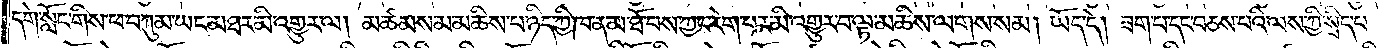དགེ་སློང་གིས་ཕ་བཀུམ་ཡང་མཐར་མི་འགྱུར་ལ། མཚམས་མ་མཆིས་པ་ཉིད་ཀྱི་ཁ་ན་མ་ཐོ་བས་ཀྱང་རེག་པར་མི་འགྱུར་བ་ལྟ་མཆིས་ལགས་སམ། ཡོད་དེ། ཟག་པ་དང་བཅས་པའི་ལས་ཀྱི་སྲིད་པ་
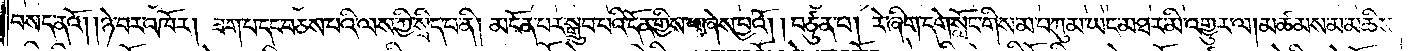བསད་ནའོ། །ཉེ་བར་འཁོར། ཟག་པ་དང་བཅས་པའི་ལས་ཀྱི་སྲིད་པ་ནི། མངོན་པར་སྒྲུབ་པའི་དོན་གྱིས་ཕ་ཞེས་བྱའོ། །བཙུན་པ། རེ་ཞིག་དགེ་སློང་གིས་མ་བཀུམ་ཡང་མཐར་མི་འགྱུར་ལ། མཚམས་མ་མཆིས་
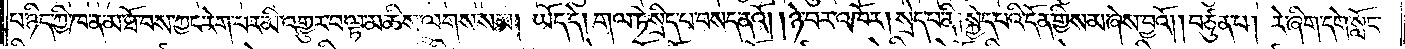པ་ཉིད་ཀྱི་ཁ་ན་མ་ཐོ་བས་ཀྱང་རེག་པར་མི་འགྱུར་བ་ལྟ་མཆིས་ལགས་སམ། ཡོད་དེ། གལ་ཏེ་སྲིད་པ་བསད་ནའོ། །ཉེ་བར་འཁོར། སྲེད་པ་ནི། སྐྱེད་པའི་དོན་གྱིས་མ་ཞེས་བྱའོ། །བཙུན་པ། རེ་ཞིག་དགེ་སློང་
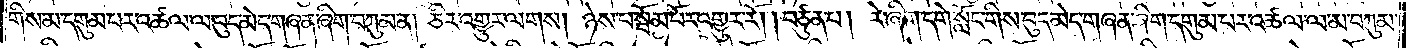གིས་མ་དགུམ་པར་འཚལ་ལ་བུད་མེད་གཞན་ཞིག་བཀུམ་ན། ཅིར་འགྱུར་ལགས། ཉེས་པ་སྦོམ་པོར་འགྱུར་རོ། །བཙུན་པ། རེ་ཞིག་དགེ་སློང་གིས་བུད་མེད་གཞན་ཞིག་དགུམ་པར་འཚལ་ལ་མ་བཀུམ་
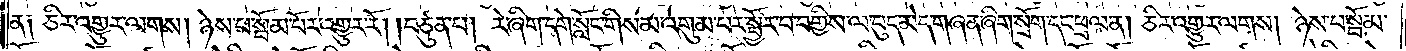ན༑ ཅིར་འགྱུར་ལགས། ཉེས་པ་སྦོམ་པོར་འགྱུར་རོ། །བཙུན་པ། རེ་ཞིག་དགེ་སློང་གིས་མ་འགུམ་པར་སྦྱོར་བ་བགྱིས་ལ་བུད་མེད་གཞན་ཞིག་སྲོག་དང་ཕྲལ་ན། ཅིར་འགྱུར་ལགས། ཉེས་པ་སྦོམ་
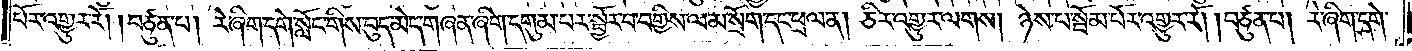པོར་འགྱུར་རོ། །བཙུན་པ། རེ་ཞིག་དགེ་སློང་གིས་བུད་མེད་གཞན་ཞིག་དགུམ་པར་སྦྱོར་བ་བགྱིས་ལམ་སྲོག་དང་ཕྲལ་ན། ཅིར་འགྱུར་ལགས། ཉེས་པ་སྦོམ་པོར་འགྱུར་རོ། །བཙུན་པ། རེ་ཞིག་དགེ་
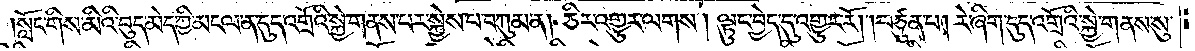།སློང་གིས་མིའི་བུད་མེད་ཀྱི་མངལ་ན་དུད་འགྲོའི་སྐྱེ་གནས་པར་སྐྱེས་པ་བཀུམ་ན། ཅིར་འགྱུར་ལགས། ལྟུང་བྱེད་དུ་འགྱུར་རོ། །བཙུན་པ། རེ་ཞིག་དུད་འགྲོའི་སྐྱེ་གནས་སུ་
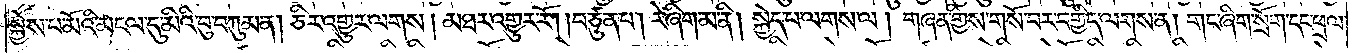སྐྱེས་པ་མོའི་མངལ་དུ་མིའི་བུ་བཀུམ་ན། ཅིར་འགྱུར་ལགས། མཐར་འགྱུར་རོ། །བཙུན་པ། རེ་ཞིག་མ་ནི། སྐྱེད་པ་ལགས་ལ། གཞན་གྱིས་གསོ་བར་བགྱིད་ལགས་ན། གང་ཞིག་སྲོག་དང་ཕྲལ་
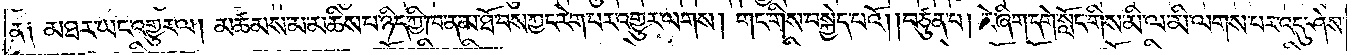ན༑ མཐར་ཡང་འགྱུར་ལ། མཚམས་མ་མཆིས་པ་ཉིད་ཀྱི་ཁ་ན་མ་ཐོ་བས་ཀྱང་རེག་པར་འགྱུར་ལགས། གང་གིས་བསྐྱེད་པའོ། །བཙུན་པ། རེ་ཞིག་དགེ་སློང་གིས་མི་ལ་མི་ལགས་པར་འདུ་ཤེས་
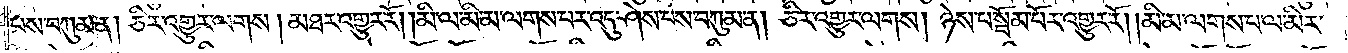པས་བཀུམ་ན། ཅིར་འགྱུར་ལགས། མཐར་འགྱུར་རོ། །མི་ལ་མི་མ་ལགས་པར་འདུ་ཤེས་པས་བཀུམ་ན། ཅིར་འགྱུར་ལགས། ཉེས་པ་སྦོམ་པོར་འགྱུར་རོ། །མི་མ་ལགས་པ་ལ་མིར་
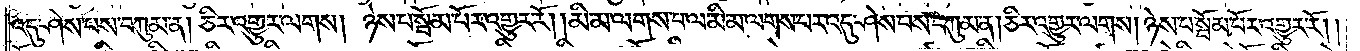འདུ་ཤེས་པས་བཀུམ་ན། ཅིར་འགྱུར་ལགས། ཉེས་པ་སྦོམ་པོར་འགྱུར་རོ། །མི་མ་ལགས་པ་ལ་མི་མ་ལགས་པར་འདུ་ཤེས་པས་བཀུམ་ན། ཅིར་འགྱུར་ལགས། ཉེས་པ་སྦོམ་པོར་འགྱུར་རོ། །
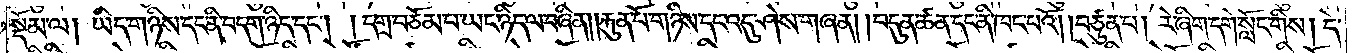སྡོམ་ལ། ཡིད་གཉིས་དང་ནི་བདག་ཉིད་དང༌། །དགྲ་བཅོམ་པ་ཡང་ཉིད་ལ་བཞིན། །རྐུན་པོ་གཉིས་དང་འདུ་ཤེས་གཞན། །བདུན་ཚན་དང་ནི་ཁང་པའོ། །བཙུན་པ། རེ་ཞིག་དགེ་སློང་གིས། དེ་
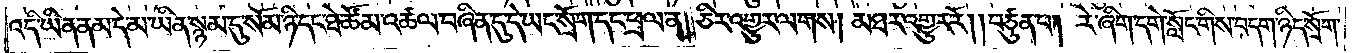འདི་ཡིན་ནམ་དེ་མ་ཡིན་སྙམ་དུ་སོམ་ཉི་དང་ཐེ་ཚོམ་འཚལ་བཞིན་དུ་དེ་ཡང་སྲོག་དང་ཕྲལ་ན། ཅིར་འགྱུར་ལགས། མཐར་འགྱུར་རོ། །བཙུན་པ། རེ་ཞིག་དགེ་སློང་གིས་བདག་ཉིད་སྲོག་
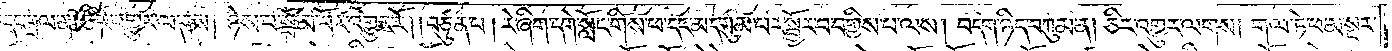དང་ཕྲལ་ན། ཅིར་འགྱུར་ལགས། ཉེས་པ་སྦོམ་པོར་འགྱུར་རོ། །བཙུན་པ། རེ་ཞིག་དགེ་སློང་གིས་ཕ་དང་མ་དགུམ་པར་སྦྱོར་བ་བགྱིས་པ་ལས། བདག་ཉིད་བཀུམ་ན། ཅིར་འགྱུར་ལགས། གལ་ཏེ་ཕ་མ་སྔར་
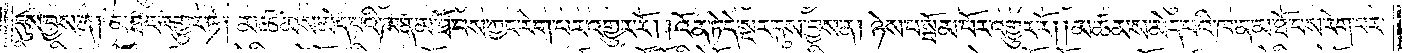དུས་བྱས་ན། མཐར་འགྱུར་ཏེ། མཚམས་མེད་པའི་ཁ་ན་མ་ཐོ་བས་ཀྱང་རེག་པར་འགྱུར་རོ། །འོན་ཏེ་དེ་སྔར་དུས་བྱས་ན། ཉེས་པ་སྦོམ་པོར་འགྱུར་རོ། །མཚམས་མེད་པའི་ཁ་ན་མ་ཐོ་བས་རེག་པར་
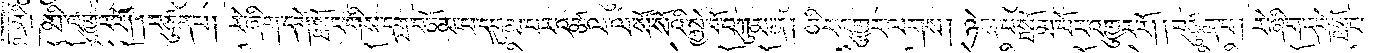ནི། མི་འགྱུར་རོ། །བཙུན་པ། རེ་ཞིག་དགེ་སློང་གིས་དགྲ་བཅོམ་པ་དགུམ་པར་འཚལ་ལ་སོ་སོའི་སྐྱེ་བོ་བཀུམ་ན། ཅིར་འགྱུར་ལགས། ཉེས་པ་སྦོམ་པོར་འགྱུར་རོ། །བཙུན་པ། རེ་ཞིག་དགེ་སློང་
